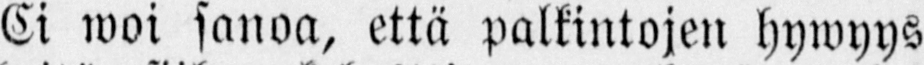Ei woi sanoa, että palkintojen hywyys
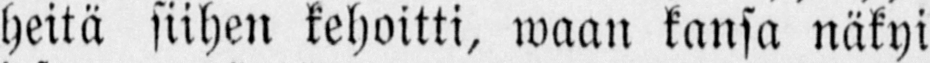heitä siihen kehoitti, waan kansa näkyi
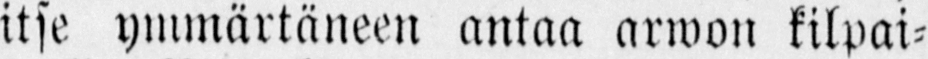itse ymmärtäneen antaa arwon kilpai-
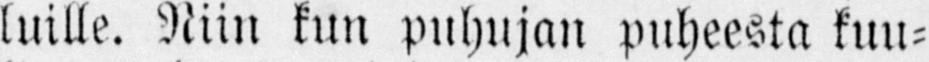luille. Niin kuu puhujan puheesta kuu-
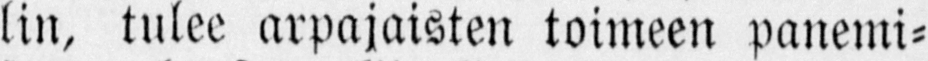lin, tulee arpajaisten toimeen panemi-
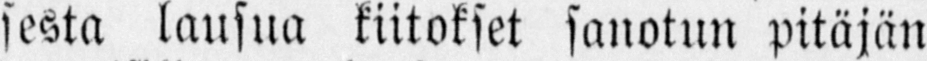sesta lausua kiitokset sanotun pitäjän
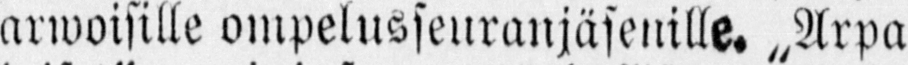arwoisille ompelusseuranjäsenille. „Arpa
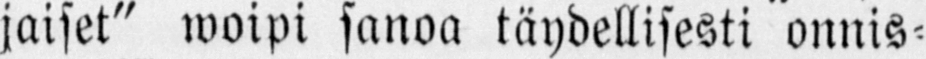jaiset" woipi sanoa täydellisesti onnis-
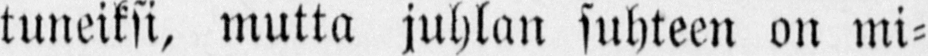tuneiksi, mutta juhlan suhteen on mi-
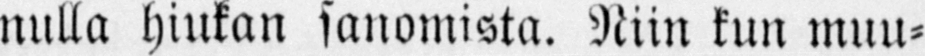nulla hiukan sanomista. Niin kun muu-
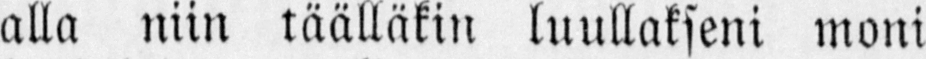alla niin täälläkin luullakseni moni
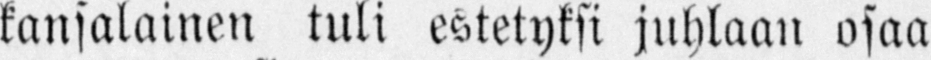kansalainen tuli estetyksi juhlaan osaa
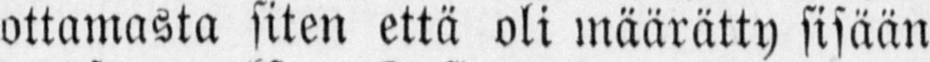ottamasta siten että oli määrätty sisään
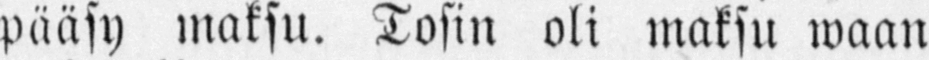pääsy maksu. Tosin oli maksu waan
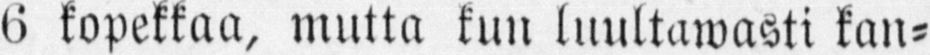6 kopekkaa, mutta kuu luultawasti kan-
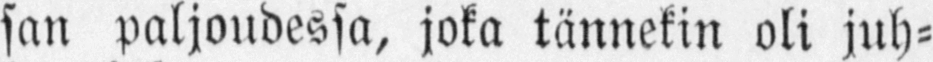san paljoudessa, joka tännekin oli juh-
